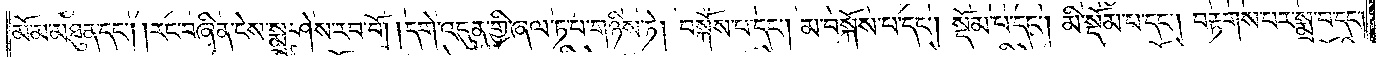མོ་མ་མཐུན་དང༌། །རང་བཞིན་ངེས་སྨྲ་ཤེས་རབ་བོ། །དགེ་འདུན་གྱི་ཞལ་ཏ་པ་གཉིས་ཏེ། བསྐོས་པ་དང༌། མ་བསྐོས་པ་དང༌། སྡོམ་པ་དང༌། མི་སྡོམ་པ་དང༌། བརྟགས་པར་སྨྲ་བ་དང༌།
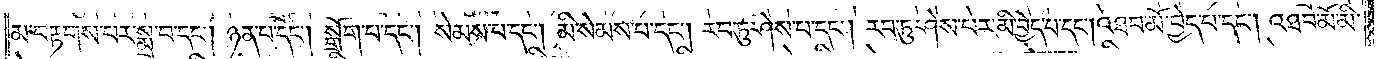མ་བརྟགས་པར་སྨྲ་བ་དང༌། ཉན་པ་དང༌། སྒྲོག་པ་དང༌། སེམས་པ་དང༌། མི་སེམས་པ་དང༌། རབ་ཏུ་ཤེས་པ་དང༌། རབ་ཏུ་ཤེས་པར་མི་བྱེད་པ་དང༌། འཐབ་མོ་བྱེད་པ་དང༌། འཐབ་མོ་མི་
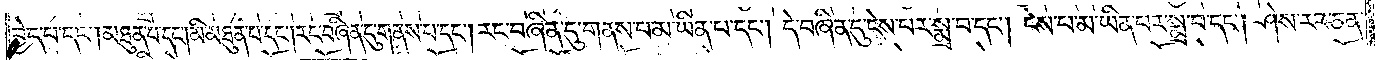བྱེད་པ་དང༌། མཐུན་པ་དང༌། མི་མཐུན་པ་དང༌། རང་བཞིན་དུ་གནས་པ་དང༌། རང་བཞིན་དུ་གནས་པ་མ་ཡིན་པ་དང༌། དེ་བཞིན་དུ་ངེས་པར་སྨྲ་བ་དང༌། ངེས་པ་མ་ཡིན་པར་སྨྲ་བ་དང༌། ཤེས་རབ་ཅན་
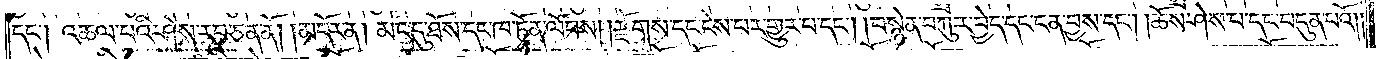དང༌། འཆལ་བའི་ཤེས་རབ་ཅན་ནོ། །མདོར་ན། མང་དུ་ཐོས་དང་ཁ་ཏོན་ལོབས། །རྫོགས་དང་ངེས་པར་གྱུར་པ་དང༌། །བསྙེན་བཀུར་བྱེད་དང་ངན་བྱས་དང༌། །ཆོས་ཤེས་པ་དང་བདུན་པའོ། །
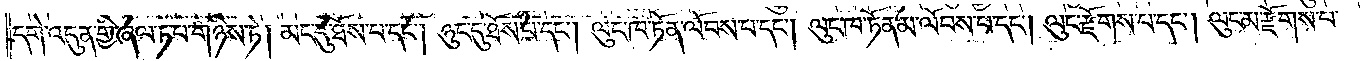དགེ་འདུན་གྱི་ཞལ་ཏ་པ་གཉིས་ཏེ། མང་དུ་ཐོས་པ་དང༌། ཉུང་དུ་ཐོས་པ་དང༌། ལུང་ཁ་ཏོན་ལོབས་པ་དང༌། ལུང་ཁ་ཏོན་མ་ལོབས་པ་དང༌། ལུང་རྫོགས་པ་དང༌། ལུང་མ་རྫོགས་པ་
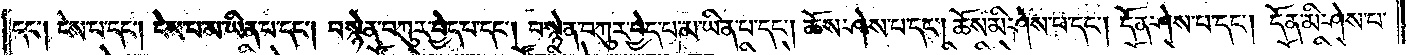དང༌། ངེས་པ་དང༌། ངེས་པ་མ་ཡིན་པ་དང༌། བསྙེན་བཀུར་བྱེད་པ་དང༌། བསྙེན་བཀུར་བྱེད་པ་མ་ཡིན་པ་དང༌། ཆོས་ཤེས་པ་དང༌། ཆོས་མི་ཤེས་པ་དང༌། དོན་ཤེས་པ་དང༌། དོན་མི་ཤེས་པ་
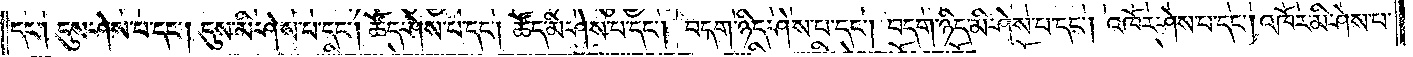དང༌། དུས་ཤེས་པ་དང༌། དུས་མི་ཤེས་པ་དང༌། ཚོད་ཤེས་པ་དང༌། ཚོད་མི་ཤེས་པ་དང༌། བདག་ཉིད་ཤེས་པ་དང༌། བདག་ཉིད་མི་ཤེས་པ་དང༌། འཁོར་ཤེས་པ་དང༌། འཁོར་མི་ཤེས་པ་
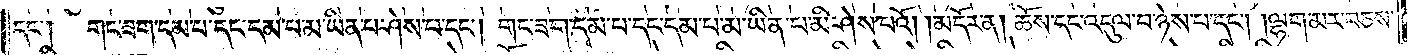དང༌། གང་ཟག་དམ་པ་དང་དམ་པ་མ་ཡིན་པ་ཤེས་པ་དང༌། གང་ཟག་དམ་པ་དང་དམ་པ་མ་ཡིན་པ་མི་ཤེས་པའོ། །མདོར་ན། ཆོས་དང་འདུལ་བ་ཉེས་པ་དང༌། ལྷག་མར་བཅས་
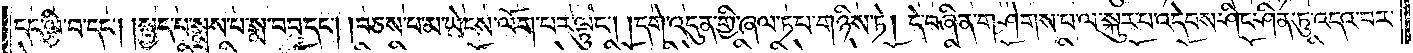དང་ལྕི་བ་དང༌། །སྤྱད་པ་སྨྲས་པ་སྨ་བབ་དང༌། །བཅས་པ་མ་ཡེངས་ལོག་པར་ལྟུང༌། །དགེ་འདུན་གྱི་ཞལ་ཏ་པ་གཉིས་ཏེ། དེ་བཞིན་གཤེགས་པ་ལ་སྐུར་བ་འདེབས་ཤིང་ཤིན་ཏུ་འདའ་བར་
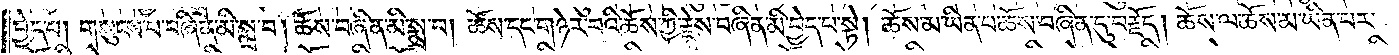བྱེད་པ། གསུངས་པ་བཞིན་མི་སྨྲ་བ། ཆོས་བཞིན་མི་སྨྲ་བ། ཆོས་དང་གཉེར་བའི་ཆོས་ཀྱི་རྗེས་བཞིན་མི་བྱེད་པ་སྟེ། ཆོས་མ་ཡིན་པ་ཆོས་བཞིན་དུ་བརྗོད། ཆོས་ལ་ཆོས་མ་ཡིན་པར་
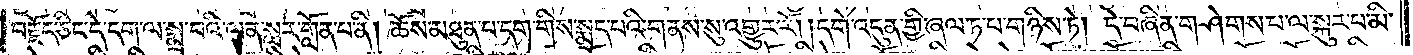བརྗོད་ཅིང་དེ་དག་ལ་སྨྲ་བའི་ལན་སླར་གློན་པ་ནི། ཆོས་མཐུན་པ་དག་གིས་སྨད་པའི་གནས་སུ་འགྱུར་རོ། །དགེ་འདུན་གྱི་ཞལ་ཏ་པ་གཉིས་ཏེ། དེ་བཞིན་གཤེགས་པ་ལ་སྐུར་བ་མི་
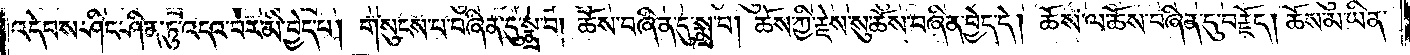འདེབས་ཤིང་ཤིན་ཏུ་འདའ་བར་མི་བྱེད་པ། གསུངས་པ་བཞིན་དུ་སྨྲ་བ། ཆོས་བཞིན་དུ་སྨྲ་བ། ཆོས་ཀྱི་རྗེས་སུ་ཆོས་བཞིན་བྱེད་དེ། ཆོས་ལ་ཆོས་བཞིན་དུ་བརྗོད། ཆོས་མ་ཡིན་
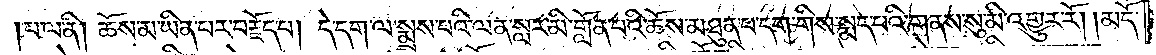པ་ལ་ནི། ཆོས་མ་ཡིན་པར་བརྗོད་པ། དེ་དག་ལ་སྨྲས་པའི་ལན་སླར་མི་གློན་པའི་ཆོས་མཐུན་པ་དག་གིས་སྨད་པའི་གནས་སུ་མི་འགྱུར་རོ། །མདོ་
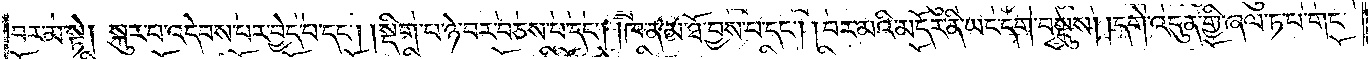བར་མ་སྟེ། སྐུར་བ་འདེབས་པར་བྱེད་པ་དང༌། །སྡིག་པ་ཉེ་བར་བཅས་པ་དང༌། །ཁ་ན་མ་ཐོ་བྱས་པ་དང༌། །བར་མའི་མདོར་ནི་ཡང་དག་བསྡུས། །དགེ་འདུན་གྱི་ཞལ་ཏ་པ་གང་
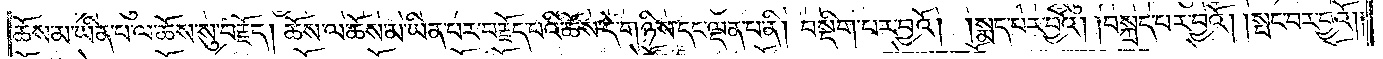ཆོས་མ་ཡིན་པ་ལ་ཆོས་སུ་བརྗོད། ཆོས་ལ་ཆོས་མ་ཡིན་པར་བརྗོད་པའི་ཆོས་དེ་གཉིས་དང་ལྡན་པ་ནི། བསྡིག་པར་བྱའོ། །སྨད་པར་བྱའོ། །བསྐྲད་པར་བྱའོ། །སྤང་བར་བྱའོ། །
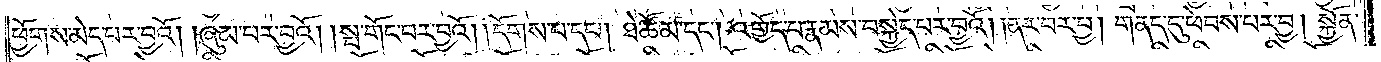ཕྱོགས་མེད་པར་བྱའོ། །ཞུམ་པར་བྱའོ། །སྤ་གོང་བར་བྱའོ། །དོགས་པ་དང༌། ཐེ་ཚོམ་དང༌། འགྱོད་པ་རྣམས་བསྐྱེད་པར་བྱའོ། །ནར་བར་བྱ། གནད་དུ་ཕེབས་པར་བྱ། སྐྱོན་
